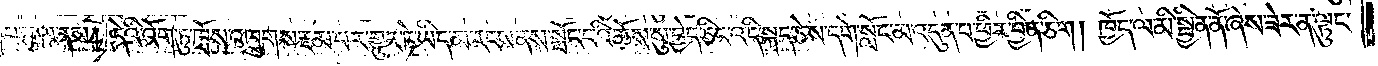པ་ཕུལ་ནས། དེའི་འོག་ཏུ་ཁྲོས་འཁྲུགས་རྔམ་པར་གྱུར་ཏེ་ཡིད་མ་རངས་ནས་སྤོང་བའི་ཆོས་སུ་བྱེད་ཅིང་འདི་སྐད་ཅེས་དགེ་སློང་མ་འདུན་པ་ཕྱིར་བྱིན་ཅིག །ཁྱོད་ལ་མི་སྦྱིན་ནོ་ཞེས་ཟེར་ན་ལྟུང་
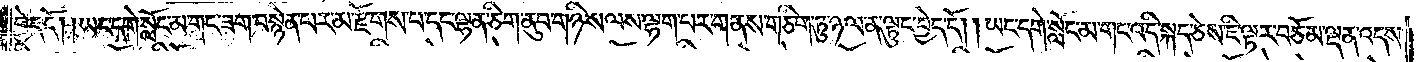བྱེད་དོ། །ཡང་དགེ་སློང་མ་གང་ཟག་བསྙེན་པར་མ་རྫོགས་པ་དང་ལྷན་ཅིག་ནུབ་གཉིས་ལས་ལྷག་པར་གནས་གཅིག་ཏུ་ཉལ་ན་ལྟུང་བྱེད་དོ། །ཡང་དགེ་སློང་མ་གང་འདི་སྐད་ཅེས་ཇི་ལྟར་བཅོམ་ལྡན་འདས་
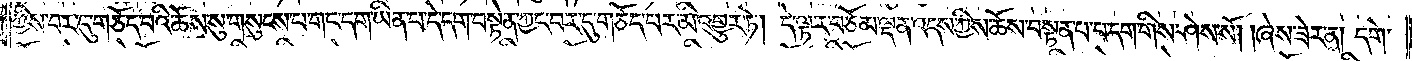ཀྱིས་བར་དུ་གཅོད་པའི་ཆོས་སུ་གསུངས་པ་གང་དག་ཡིན་པ་དེ་དག་བསྟེན་ཀྱང་བར་དུ་གཅོད་པར་མི་འགྱུར་ཏེ། དེ་ལྟར་བཅོམ་ལྡན་འདས་ཀྱིས་ཆོས་བསྟན་པ་པ་དག་གིས་ཤེས་སོ། །ཞེས་ཟེར་ན། དགེ་
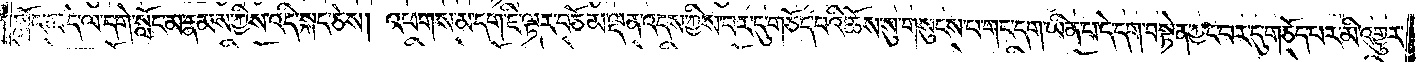སློང་མ་དེ་ལ་དགེ་སློང་མ་རྣམས་ཀྱིས་འདི་སྐད་ཅེས། འཕགས་མ་དག་ཇི་ལྟར་བཅོམ་ལྡན་འདས་ཀྱིས་བར་དུ་གཅོད་པའི་ཆོས་སུ་གསུངས་པ་གང་དག་ཡིན་པ་དེ་དག་བསྟེན་ཀྱང་བར་དུ་གཅོད་པར་མི་འགྱུར་
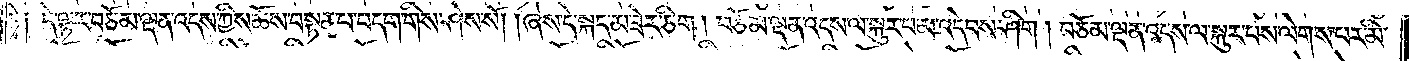ཏེ༑ དེ་ལྟར་བཅོམ་ལྡན་འདས་ཀྱིས་ཆོས་བསྟན་པ་བདག་གིས་ཤེས་སོ། །ཞེས་དེ་སྐད་མ་ཟེར་ཅིག །བཅོམ་ལྡན་འདས་ལ་སྐུར་ཕ་མ་འདེབས་ཤིག །བཅོམ་ལྡན་འདས་ལ་སྐུར་པས་ལེགས་པར་མི་
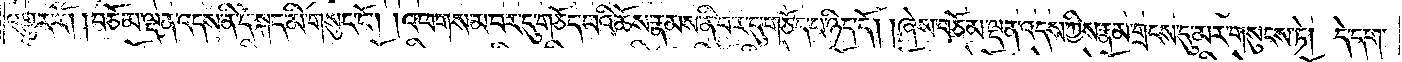འགྱུར་རོ། །བཅོམ་ལྡན་འདས་ནི་དེ་སྐད་མི་གསུང་ངོ༌། །འཕགས་མ་བར་དུ་གཅོད་པའི་ཆོས་རྣམས་ནི་བར་དུ་གཅོད་པ་ཉིད་དོ། །ཞེས་བཅོམ་ལྡན་འདས་ཀྱིས་རྣམ་གྲངས་དུ་མར་གསུངས་ཏེ། དེ་དག་
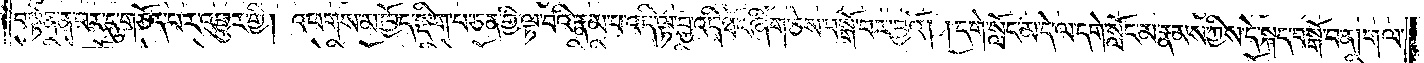བསྟེན་ན་བར་དུ་གཅོད་པར་འགྱུར་གྱི། འཕགས་མ་ཁྱོད་སྡིག་པ་ཅན་གྱི་ལྟ་བའི་རྣམ་པ་འདི་ལྟ་བུ་འདི་ཐོང་ཞིག་ཅེས་བསྒོ་བར་བྱའོ། །དགེ་སློང་མ་དེ་ལ་དགེ་སློང་མ་རྣམས་ཀྱིས་དེ་སྐད་བསྒོ་བ་ན། གལ་
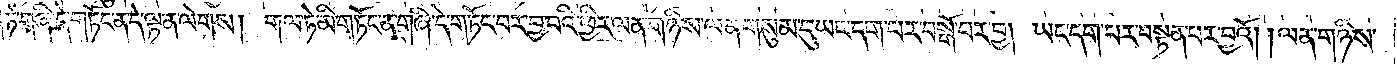ཏེ་གཞི་དེ་གཏོང་ན་དེ་ལྟ་ན་ལེགས། གལ་ཏེ་མི་གཏོང་ན་གཞི་དེ་གཏོང་བར་བྱ་བའི་ཕྱིར་ལན་གཉིས་ལན་གསུམ་དུ་ཡང་དག་པར་བསྒོ་བར་བྱ། ཡང་དག་པར་བསྟན་པར་བྱའོ། །ལན་གཉིས་
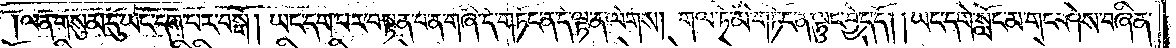ལན་གསུམ་དུ་ཡང་དག་པར་བསྒོ། ཡང་དག་པར་བསྟན་པ་ན་གཞི་དེ་གཏོང་ན་དེ་ལྟ་ན་ལེགས། གལ་ཏེ་མི་གཏོང་ན་ལྟུང་བྱེད་དོ། །ཡང་དགེ་སློང་མ་གང་ཤེས་བཞིན་
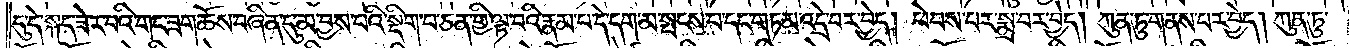དུ་དེ་སྐད་ཟེར་བའི་གང་ཟག་ཆོས་བཞིན་དུ་མ་བྱས་པའི་སྡིག་པ་ཅན་གྱི་ལྟ་བའི་རྣམ་པ་དེ་དག་མ་སྤངས་པ་དང་གཏམ་འདྲེ་བར་བྱེད། ཕེབས་པར་སྨྲ་བར་བྱེད། ཀུན་ཏུ་གནས་པར་བྱེད། ཀུན་ཏུ་
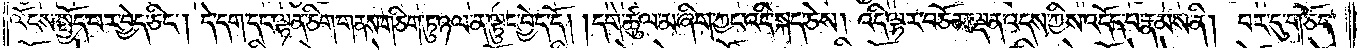ལོངས་སྤྱོད་པར་བྱེད་ཅིང༌། དེ་དག་དང་ལྷན་ཅིག་གནས་གཅིག་ཏུ་ཉལ་ན་ལྟུང་བྱེད་དོ། །དགེ་ཚུལ་མ་ཞིག་ཀྱང་འདི་སྐད་ཅེས། འདི་ལྟར་བཅོམ་ལྡན་འདས་ཀྱིས་འདོད་པ་རྣམས་ནི། བར་དུ་གཅོད་
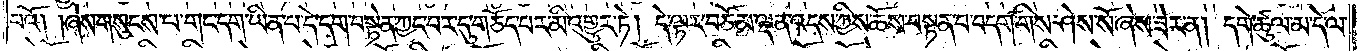པའོ། །ཞེས་གསུངས་པ་གང་དག་ཡིན་པ་དེ་དག་བསྟེན་ཀྱང་བར་དུ་གཅོད་པར་མི་འགྱུར་ཏེ། དེ་ལྟར་བཅོམ་ལྡན་འདས་ཀྱིས་ཆོས་བསྟན་པ་བདག་གིས་ཤེས་སོ་ཞེས་ཟེར་ན། དགེ་ཚུལ་མ་དེ་ལ་
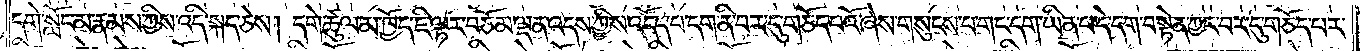དགེ་སློང་མ་རྣམས་ཀྱིས་འདི་སྐད་ཅེས། དགེ་ཚུལ་མ་ཁྱོད་ཇི་ལྟར་བཅོམ་ལྡན་འདས་ཀྱིས་འདོད་པ་དག་ནི་བར་དུ་གཅོད་པའོ་ཞེས་གསུངས་པ་གང་དག་ཡིན་པ་དེ་དག་བསྟེན་ཀྱང་བར་དུ་གཅོད་པར་
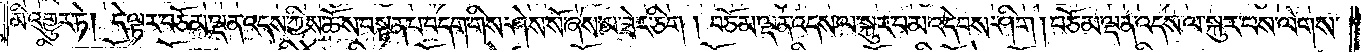མི་འགྱུར་ཏེ། དེ་ལྟར་བཅོམ་ལྡན་འདས་ཀྱིས་ཆོས་བསྟན་པ་བདག་གིས་ཤེས་སོ་ཞེས་མ་ཟེར་ཅིག །བཅོམ་ལྡན་འདས་ལ་སྐུར་པ་མ་འདེབས་ཤིག །བཅོམ་ལྡན་འདས་ལ་སྐུར་པས་ལེགས་
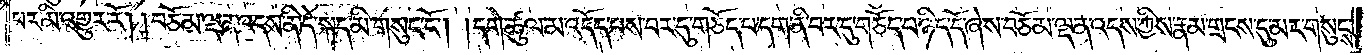པར་མི་འགྱུར་རོ། །བཅོམ་ལྡན་འདས་ནི་དེ་སྐད་མི་གསུང་ངོ༌། །དགེ་ཚུལ་མ་འདོད་པས་བར་དུ་གཅོད་པ་དག་ནི་བར་དུ་གཅོད་པ་ཉིད་དོ་ཞེས་བཅོམ་ལྡན་འདས་ཀྱིས་རྣམ་གྲངས་དུ་མར་གསུངས་
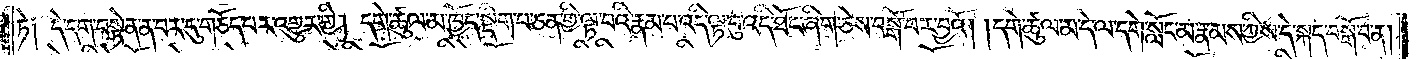ཏེ༑ དེ་དག་བསྟེན་ན་བར་དུ་གཅོད་པར་འགྱུར་གྱི། དགེ་ཚུལ་མ་ཁྱོད་སྡིག་པ་ཅན་གྱི་ལྟ་བའི་རྣམ་པ་འདི་ལྟ་བུ་འདི་ཐོང་ཞིག་ཅེས་བསྒོ་བར་བྱའོ། །དགེ་ཚུལ་མ་དེ་ལ་དགེ་སློང་མ་རྣམས་ཀྱིས་དེ་སྐད་བསྒོ་བ་ན།
